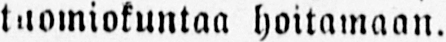tuomiokuntaa hoitamaan.
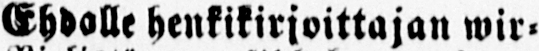Ehdolle henkikirjoittajan wir-
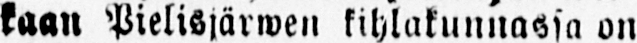kaan Pielisjärwen kihlakunnassa on
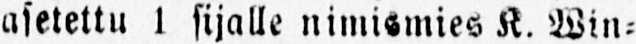asetettu 1 sijalle nimismies K. Win-
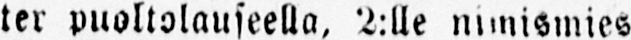ter puoltolauseella, 2:lle nimismies
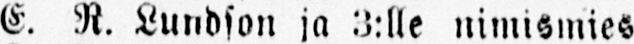E. R. Lundson ja 3:lle nimismies
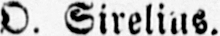O. Sirelius.
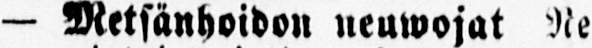— Metsänhoidon neuwojat Ne
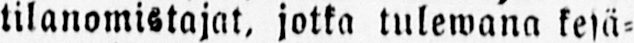tilanomistajat, jotka tulewana kesä-
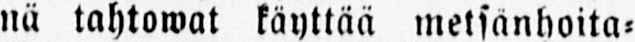nä tahtowat käyttää metsänhoita-
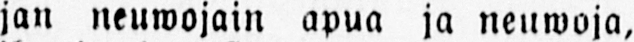jan neuwojain apua ja neuwoja,
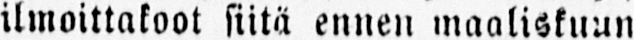ilmoittakoot siitä ennen maaliskuun
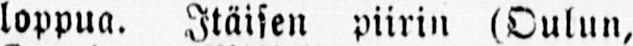loppua. Itäisen piirin (Oulun,
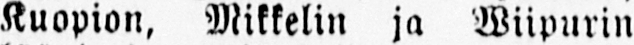Kuopion, Mikkelin ja Wiipurin
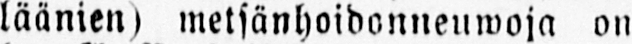läänien) metsänhoidonneuwoja on
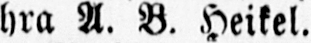hra A. B. Heikel.
